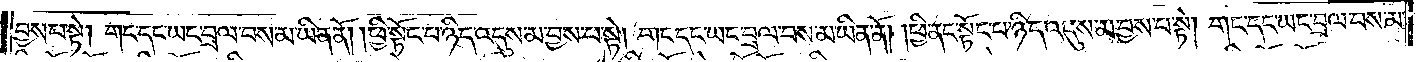བྱས་པ་སྟེ། གང་དང་ཡང་བྲལ་བས་མ་ཡིན་ནོ། །ཕྱི་སྟོང་པ་ཉིད་འདུས་མ་བྱས་པ་སྟེ། གང་དང་ཡང་བྲལ་བས་མ་ཡིན་ནོ། །ཕྱི་ནང་སྟོང་པ་ཉིད་འདུས་མ་བྱས་པ་སྟེ། གང་དང་ཡང་བྲལ་བས་མ་
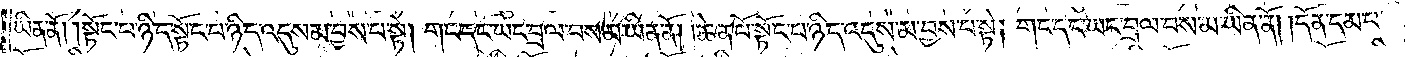ཡིན་ནོ། །སྟོང་པ་ཉིད་སྟོང་པ་ཉིད་འདུས་མ་བྱས་པ་སྟེ། གང་དང་ཡང་བྲལ་བས་མ་ཡིན་ནོ། །ཆེན་པོ་སྟོང་པ་ཉིད་འདུས་མ་བྱས་པ་སྟེ། གང་དང་ཡང་བྲལ་བས་མ་ཡིན་ནོ། །དོན་དམ་པ་
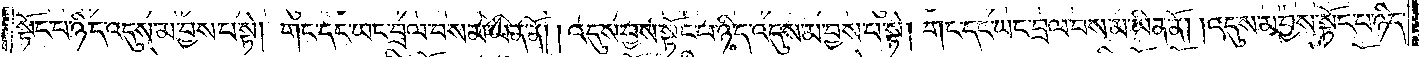སྟོང་པ་ཉིད་འདུས་མ་བྱས་པ་སྟེ། གང་དང་ཡང་བྲལ་བས་མ་ཡིན་ནོ། །འདུས་བྱས་སྟོང་པ་ཉིད་འདུས་མ་བྱས་པ་སྟེ། གང་དང་ཡང་བྲལ་བས་མ་ཡིན་ནོ། །འདུས་མ་བྱས་སྟོང་པ་ཉིད་
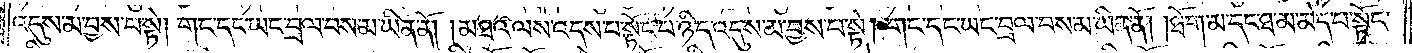འདུས་མ་བྱས་པ་སྟེ། གང་དང་ཡང་བྲལ་བས་མ་ཡིན་ནོ། །མཐའ་ལས་འདས་པ་སྟོང་པ་ཉིད་འདུས་མ་བྱས་པ་སྟེ། གང་དང་ཡང་བྲལ་བས་མ་ཡིན་ནོ། །ཐོག་མ་དང་ཐ་མ་མེད་པ་སྟོང་
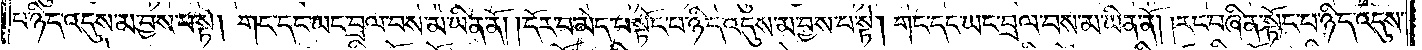པ་ཉིད་འདུས་མ་བྱས་པ་སྟེ། གང་དང་ཡང་བྲལ་བས་མ་ཡིན་ནོ། །དོར་བ་མེད་པ་སྟོང་པ་ཉིད་འདུས་མ་བྱས་པ་སྟེ། གང་དང་ཡང་བྲལ་བས་མ་ཡིན་ནོ། །རང་བཞིན་སྟོང་པ་ཉིད་འདུས་
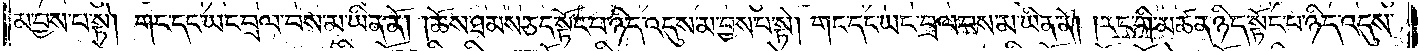མ་བྱས་པ་སྟེ། གང་དང་ཡང་བྲལ་བས་མ་ཡིན་ནོ། །ཆོས་ཐམས་ཅད་སྟོང་པ་ཉིད་འདུས་མ་བྱས་པ་སྟེ། གང་དང་ཡང་བྲལ་བས་མ་ཡིན་ནོ། །རང་གི་མཚན་ཉིད་སྟོང་པ་ཉིད་འདུས་
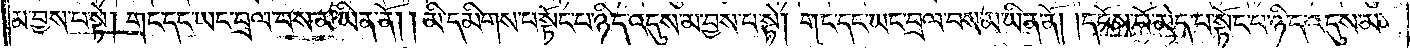མ་བྱས་པ་སྟེ། གང་དང་ཡང་བྲལ་བས་མ་ཡིན་ནོ། །མི་དམིགས་པ་སྟོང་པ་ཉིད་འདུས་མ་བྱས་པ་སྟེ། གང་དང་ཡང་བྲལ་བས་མ་ཡིན་ནོ། །དངོས་པོ་མེད་པ་སྟོང་པ་ཉིད་འདུས་མ་
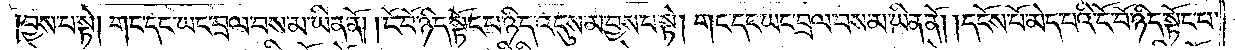བྱས་པ་སྟེ། གང་དང་ཡང་བྲལ་བས་མ་ཡིན་ནོ། །ངོ་བོ་ཉིད་སྟོང་པ་ཉིད་འདུས་མ་བྱས་པ་སྟེ། གང་དང་ཡང་བྲལ་བས་མ་ཡིན་ནོ། །དངོས་པོ་མེད་པའི་ངོ་བོ་ཉིད་སྟོང་པ་
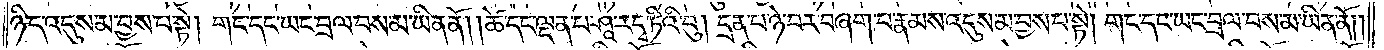ཉིད་འདུས་མ་བྱས་པ་སྟེ། གང་དང་ཡང་བྲལ་བས་མ་ཡིན་ནོ། །ཚེ་དང་ལྡན་པ་ཤཱ་ར་དྭ་ཏིའི་བུ། དྲན་པ་ཉེ་བར་བཞག་པ་རྣམས་འདུས་མ་བྱས་པ་སྟེ། གང་དང་ཡང་བྲལ་བས་མ་ཡིན་ནོ། །
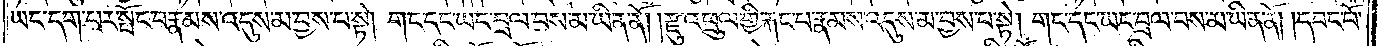ཡང་དག་པར་སྤོང་བ་རྣམས་འདུས་མ་བྱས་པ་སྟེ། གང་དང་ཡང་བྲལ་བས་མ་ཡིན་ནོ། །རྫུ་འཕྲུལ་གྱི་རྐང་པ་རྣམས་འདུས་མ་བྱས་པ་སྟེ། གང་དང་ཡང་བྲལ་བས་མ་ཡིན་ནོ། །དབང་པོ་
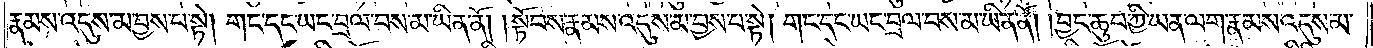རྣམས་འདུས་མ་བྱས་པ་སྟེ། གང་དང་ཡང་བྲལ་བས་མ་ཡིན་ནོ། །སྟོབས་རྣམས་འདུས་མ་བྱས་པ་སྟེ། གང་དང་ཡང་བྲལ་བས་མ་ཡིན་ནོ། །བྱང་ཆུབ་ཀྱི་ཡན་ལག་རྣམས་འདུས་མ་
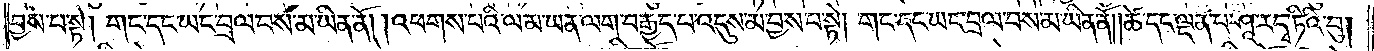བྱས་པ་སྟེ། གང་དང་ཡང་བྲལ་བས་མ་ཡིན་ནོ། །འཕགས་པའི་ལམ་ཡན་ལག་བརྒྱད་པ་འདུས་མ་བྱས་པ་སྟེ། གང་དང་ཡང་བྲལ་བས་མ་ཡིན་ནོ། །ཚེ་དང་ལྡན་པ་ཤཱ་ར་དྭ་ཏིའི་བུ།
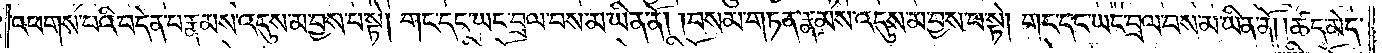འཕགས་པའི་བདེན་པ་རྣམས་འདུས་མ་བྱས་པ་སྟེ། གང་དང་ཡང་བྲལ་བས་མ་ཡིན་ནོ། །བསམ་གཏན་རྣམས་འདུས་མ་བྱས་པ་སྟེ། གང་དང་ཡང་བྲལ་བས་མ་ཡིན་ནོ། །ཚད་མེད་
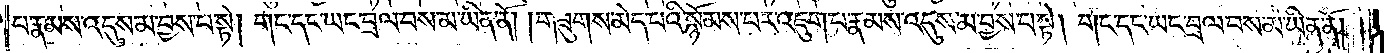པ་རྣམས་འདུས་མ་བྱས་པ་སྟེ། གང་དང་ཡང་བྲལ་བས་མ་ཡིན་ནོ། །གཟུགས་མེད་པའི་སྙོམས་པར་འཇུག་པ་རྣམས་འདུས་མ་བྱས་པ་སྟེ། གང་དང་ཡང་བྲལ་བས་མ་ཡིན་ནོ། །
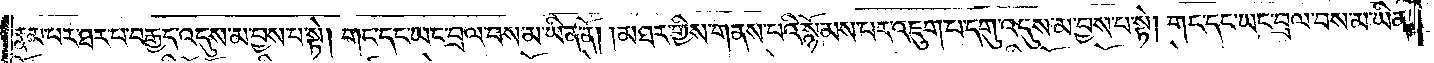རྣམ་པར་ཐར་པ་བརྒྱད་འདུས་མ་བྱས་པ་སྟེ། གང་དང་ཡང་བྲལ་བས་མ་ཡིན་ནོ། །མཐར་གྱིས་གནས་པའི་སྙོམས་པར་འཇུག་པ་དགུ་འདུས་མ་བྱས་པ་སྟེ། གང་དང་ཡང་བྲལ་བས་མ་ཡིན་
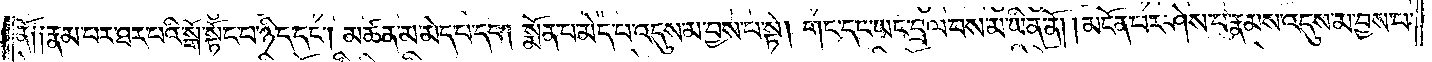ནོ། །རྣམ་པར་ཐར་པའི་སྒོ་སྟོང་པ་ཉིད་དང༌། མཚན་མ་མེད་པ་དང༌། སྨོན་པ་མེད་པ་འདུས་མ་བྱས་པ་སྟེ། གང་དང་ཡང་བྲལ་བས་མ་ཡིན་ནོ། །མངོན་པར་ཤེས་པ་རྣམས་འདུས་མ་བྱས་
